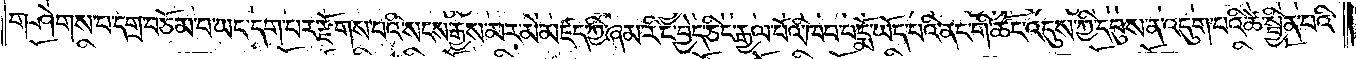གཤེགས་པ་དགྲ་བཅོམ་པ་ཡང་དག་པར་རྫོགས་པའི་སངས་རྒྱས་མར་མེ་མཛད་ཀྱི་ཞམ་རིང་བྱེད་ཅིང་རྒྱལ་པོའི་ཁབ་པདྨོ་ཡོད་པའི་ནང་གི་ཚོང་འདུས་ཀྱི་དབུས་ན་འདུག་པའི་ཚེ་སྦྱིན་པའི་
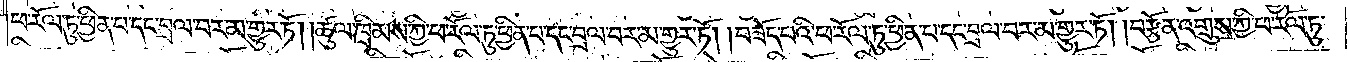ཕ་རོལ་ཏུ་ཕྱིན་བ་དང་བྲལ་བར་མ་གྱུར་ཏོ། །ཚུལ་ཁྲིམས་ཀྱི་ཕ་རོལ་ཏུ་ཕྱིན་པ་དང་བྲལ་བར་མ་གྱུར་ཏོ། །བཟོད་པའི་ཕ་རོལ་ཏུ་ཕྱིན་པ་དང་བྲལ་བར་མ་གྱུར་ཏོ། །བརྩོན་འགྲུས་ཀྱི་ཕ་རོལ་ཏུ་
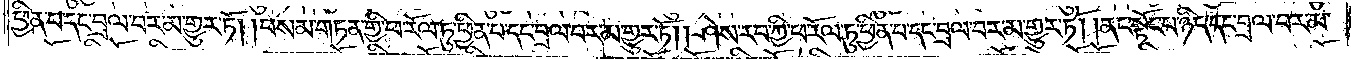ཕྱིན་པ་དང་བྲལ་བར་མ་གྱུར་ཏོ། །བསམ་གཏན་གྱི་ཕ་རོལ་ཏུ་ཕྱིན་པ་དང་བྲལ་བར་མ་གྱུར་ཏོ། །ཤེས་རབ་ཀྱི་ཕ་རོལ་ཏུ་ཕྱིན་པ་དང་བྲལ་བར་མ་གྱུར་ཏོ། །ནང་སྟོང་པ་ཉིད་དང་བྲལ་བར་མ་
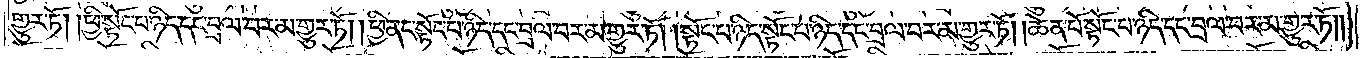གྱུར་ཏོ། །ཕྱི་སྟོང་པ་ཉིད་དང་བྲལ་བར་མ་གྱུར་ཏོ། །ཕྱི་ནང་སྟོང་པ་ཉིད་དང་བྲལ་བར་མ་གྱུར་ཏོ། །སྟོང་པ་ཉིད་སྟོང་པ་ཉིད་དང་བྲལ་བར་མ་གྱུར་ཏོ། །ཆེན་པོ་སྟོང་པ་ཉིད་དང་བྲལ་བར་མ་གྱུར་ཏོ༎
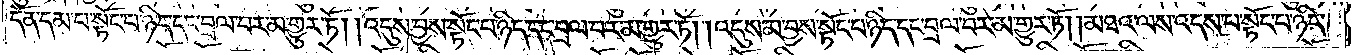དོན་དམ་པ་སྟོང་པ་ཉིད་དང་བྲལ་བར་མ་གྱུར་ཏོ། །འདུས་བྱས་སྟོང་པ་ཉིད་དང་བྲལ་བར་མ་གྱུར་ཏོ། །འདུས་མ་བྱས་སྟོང་པ་ཉིད་དང་བྲལ་བར་མ་གྱུར་ཏོ། །མཐའ་ལས་འདས་པ་སྟོང་པ་ཉིད་
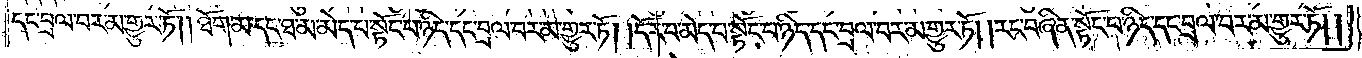དང་བྲལ་བར་མ་གྱུར་ཏོ། །ཐོག་མ་དང་ཐ་མ་མེད་པ་སྟོང་པ་ཉིད་དང་བྲལ་བར་མ་གྱུར་ཏོ། །དོར་བ་མེད་པ་སྟོང་པ་ཉིད་དང་བྲལ་བར་མ་གྱུར་ཏོ། །རང་བཞིན་སྟོང་པ་ཉིད་དང་བྲལ་བར་མ་གྱུར་ཏོ༎
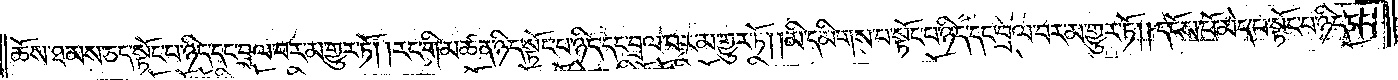ཆོས་ཐམས་ཅད་སྟོང་པ་ཉིད་དང་བྲལ་བར་མ་གྱུར་ཏོ། །རང་གི་མཚན་ཉིད་སྟོང་པ་ཉིད་དང་བྲལ་བར་མ་གྱུར་ཏོ། །མི་དམིགས་པ་སྟོང་པ་ཉིད་དང་བྲལ་བར་མ་གྱུར་ཏོ། །དངོས་པོ་མེད་པ་སྟོང་པ་ཉིད་དང་
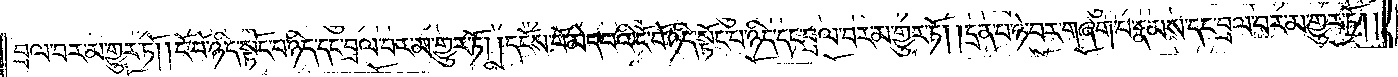བྲལ་བར་མ་གྱུར་ཏོ། །ངོ་བོ་ཉིད་སྟོང་པ་ཉིད་དང་བྲལ་བར་མ་གྱུར་ཏོ། །དངོས་པོ་མེད་པའི་ངོ་བོ་ཉིད་སྟོང་པ་ཉིད་དང་བྲལ་བར་མ་གྱུར་ཏོ། །དྲན་པ་ཉེ་བར་གཞག་པ་རྣམས་དང་བྲལ་བར་མ་གྱུར་ཏོ༎
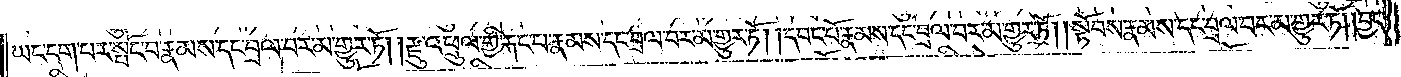ཡང་དག་པར་སྤོང་བ་རྣམས་དང་བྲལ་བར་མ་གྱུར་ཏོ། །རྫུ་འཕྲུལ་གྱི་རྐང་པ་རྣམས་དང་བྲལ་བར་མ་གྱུར་ཏོ། །དབང་པོ་རྣམས་དང་བྲལ་བར་མ་གྱུར་ཏོ། །སྟོབས་རྣམས་དང་བྲལ་བར་མ་གྱུར་ཏོ། །བྱང་
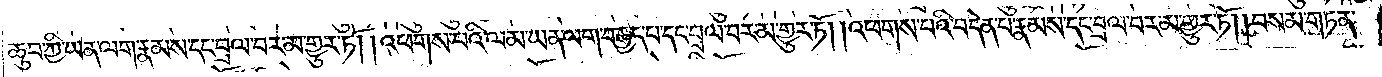ཆུབ་ཀྱི་ཡན་ལག་རྣམས་དང་བྲལ་བར་མ་གྱུར་ཏོ། །འཕགས་པའི་ལམ་ཡན་ལག་བརྒྱད་པ་དང་བྲལ་བར་མ་གྱུར་ཏོ། །འཕགས་པའི་བདེན་པ་རྣམས་དང་བྲལ་བར་མ་གྱུར་ཏོ། །བསམ་གཏན་
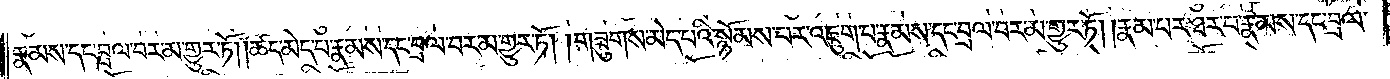རྣམས་དང་བྲལ་བར་མ་གྱུར་ཏོ། །ཚད་མེད་པ་རྣམས་དང་བྲལ་བར་མ་གྱུར་ཏོ། །གཟུགས་མེད་པའི་སྙོམས་པར་འཇུག་པ་རྣམས་དང་བྲལ་བར་མ་གྱུར་ཏོ། །རྣམ་པར་ཐར་པ་རྣམས་དང་བྲལ་
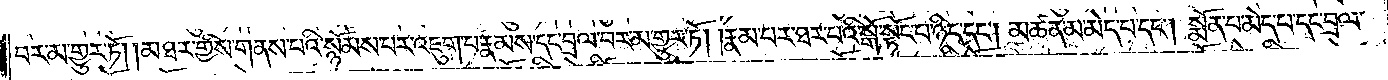བར་མ་གྱུར་ཏོ། །མཐར་གྱིས་གནས་པའི་སྙོམས་པར་འཇུག་པ་རྣམས་དང་བྲལ་བར་མ་གྱུར་ཏོ། །རྣམ་པར་ཐར་པའི་སྒོ་སྟོང་པ་ཉིད་དང༌། མཚན་མ་མེད་པ་དང༌། སྨོན་པ་མེད་པ་དང་བྲལ་
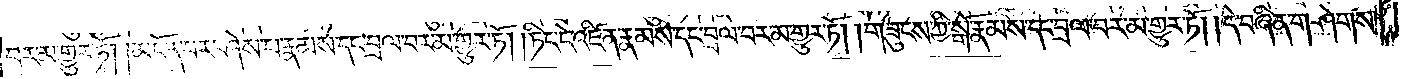བར་མ་གྱུར་ཏོ། །མངོན་པར་ཤེས་པ་རྣམས་དང་བྲལ་བར་མ་གྱུར་ཏོ། །ཏིང་ངེ་འཛིན་རྣམས་དང་བྲལ་བར་མ་གྱུར་ཏོ། །གཟུངས་ཀྱི་སྒོ་རྣམས་དང་བྲལ་བར་མ་གྱུར་ཏོ། །དེ་བཞིན་གཤེགས་
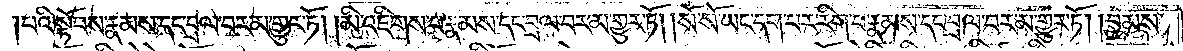པའི་སྟོབས་རྣམས་དང་བྲལ་བར་མ་གྱུར་ཏོ། །མི་འཇིགས་པ་རྣམས་དང་བྲལ་བར་མ་གྱུར་ཏོ། །སོ་སོ་ཡང་དག་པར་རིག་པ་རྣམས་དང་བྲལ་བར་མ་གྱུར་ཏོ། །བྱམས་
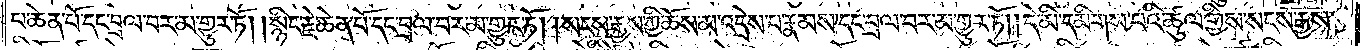པ་ཆེན་པོ་དང་བྲལ་བར་མ་གྱུར་ཏོ། །སྙིང་རྗེ་ཆེན་པོ་དང་བྲལ་བར་མ་གྱུར་ཏོ། །སངས་རྒྱས་ཀྱི་ཆོས་མ་འདྲེས་པ་རྣམས་དང་བྲལ་བར་མ་གྱུར་ཏོ། དེ་མི་དམིགས་པའི་ཚུལ་གྱིས་སངས་རྒྱས་
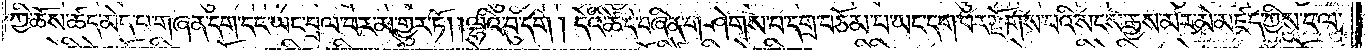ཀྱི་ཆོས་ཚད་མེད་པ་གཞན་དག་དང་ཡང་བྲལ་བར་མ་གྱུར་ཏོ། །ལྷའི་བུ་དག། དེའི་ཚེ་དེ་བཞིན་གཤེགས་པ་དགྲ་བཅོམ་པ་ཡང་དག་པར་རྫོགས་པའི་སངས་རྒྱས་མར་མེ་མཛད་ཀྱིས་ང་ལ་
